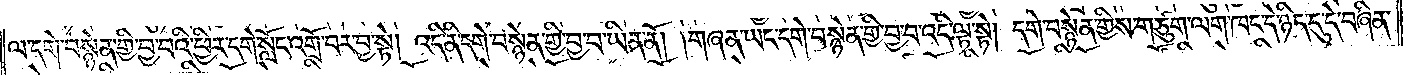ལ་དགེ་བསྙེན་གྱི་བྱ་བའི་ཕྱིར་དགེ་སློང་འགྲོ་བར་བྱ་སྟེ། འདི་ནི་དགེ་བསྙེན་གྱི་བྱ་བ་ཡིན་ནོ། །གཞན་ཡང་དགེ་བསྙེན་གྱི་བྱ་བ་འདི་ལྟ་སྟེ། དགེ་བསྙེན་གྱིས་གཙུག་ལག་ཁང་དེ་ཉིད་དུ་དེ་བཞིན་
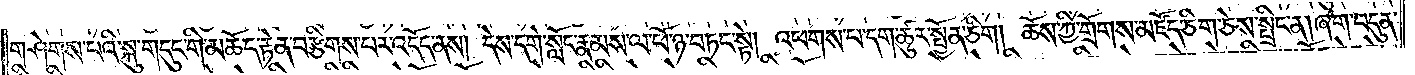གཤེགས་པའི་སྐུ་གདུང་གི་མཆོད་རྟེན་བརྩིགས་པར་འདོད་ནས། དེས་དགེ་སློང་རྣམས་ལ་ཕོ་ཉ་བཏང་སྟེ། འཕགས་པ་དག་ཚུར་སྤྱོན་ཅིག། ཆོས་ཀྱི་གྲོགས་མཛོད་ཅིག་ཅེས་སྤྲིང་ན། ཞག་བདུན་
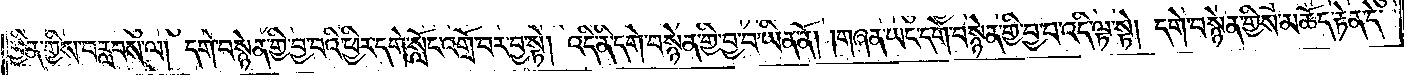བྱིན་གྱིས་བརླབས་ལ། དགེ་བསྙེན་གྱི་བྱ་བའི་ཕྱིར་དགེ་སློང་འགྲོ་བར་བྱ་སྟེ། འདི་ནི་དགེ་བསྙེན་གྱི་བྱ་བ་ཡིན་ནོ། །གཞན་ཡང་དགེ་བསྙེན་གྱི་བྱ་བ་འདི་ལྟ་སྟེ། དགེ་བསྙེན་གྱིས་མཆོད་རྟེན་དེ་
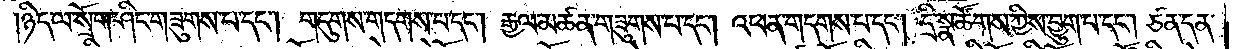ཉིད་ལ་སྲོག་ཤིང་གཟུགས་པ་དང༌། གདུགས་གདགས་པ་དང༌། རྒྱལ་མཚན་གཟུགས་པ་དང༌། འཕན་གདགས་པ་དང༌། དྲི་སྣ་ཚོགས་ཀྱིས་བྱུག་པ་དང༌། ཙན་དན་
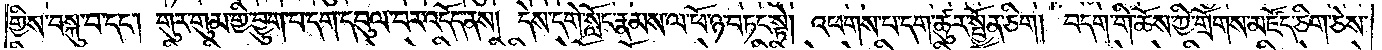གྱིས་བསྐུ་བ་དང༌། གུར་གུམ་གྱི་བྱུག་པ་དག་དབུལ་བར་འདོད་ནས། དེས་དགེ་སློང་རྣམས་ལ་ཕོ་ཉ་བཏང་སྟེ། འཕགས་པ་དག་ཚུར་སྤྱོན་ཅིག། བདག་གི་ཆོས་ཀྱི་གྲོགས་མཛོད་ཅིག་ཅེས་
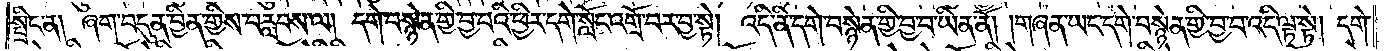སྤྲིང་ན། ཞག་བདུན་བྱིན་གྱིས་བརླབས་ལ། དགེ་བསྙེན་གྱི་བྱ་བའི་ཕྱིར་དགེ་སློང་འགྲོ་བར་བྱ་སྟེ། འདི་ནི་དགེ་བསྙེན་གྱི་བྱ་བ་ཡིན་ནོ། །གཞན་ཡང་དགེ་བསྙེན་གྱི་བྱ་བ་འདི་ལྟ་སྟེ། དགེ་
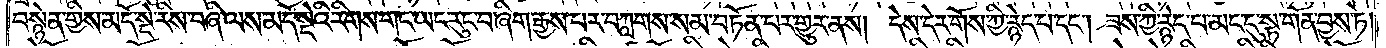བསྙེན་གྱིས་མདོ་སྡེ་རིས་བཞི་ལས་མདོ་སྡེའི་རིགས་གང་ཡང་རུང་བ་ཞིག་རྒྱས་པར་བཀླགས་སམ་བཏོན་པར་གྱུར་ནས། དེས་དེར་གོས་ཀྱི་རྙེད་པ་དང༌། ཟས་ཀྱི་རྙེད་པ་མང་དུ་སྟ་གོན་བྱས་ཏེ་
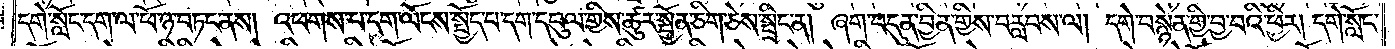དགེ་སློང་དག་ལ་ཕོ་ཉ་བཏང་ནས། འཕགས་པ་དག་ལོངས་སྤྱོད་པ་དག་དབུལ་གྱིས་ཚུར་སྤྱོན་ཅིག་ཅེས་སྤྲིང་ན། ཞག་བདུན་བྱིན་གྱིས་བརླབས་ལ། དགེ་བསྙེན་གྱི་བྱ་བའི་ཕྱིར། དགེ་སློང་
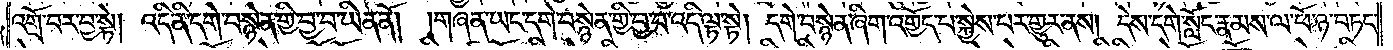འགྲོ་བར་བྱ་སྟེ། འདི་ནི་དགེ་བསྙེན་གྱི་བྱ་བ་ཡིན་ནོ། །གཞན་ཡང་དགེ་བསྙེན་གྱི་བྱ་བ་འདི་ལྟ་སྟེ། དགེ་བསྙེན་ཞིག་འགྱོད་པ་སྐྱེས་པར་གྱུར་ནས། དེས་དགེ་སློང་རྣམས་ལ་ཕོ་ཉ་བཏང་
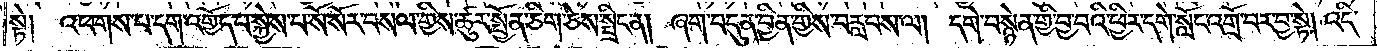སྟེ། འཕགས་པ་དག་འགྱོད་པ་སྐྱེས་པ་སོ་སོར་བསལ་གྱིས་ཚུར་སྤྱོན་ཅིག་ཅེས་སྤྲིང་ན། ཞག་བདུན་བྱིན་གྱིས་བརླབས་ལ། དགེ་བསྙེན་གྱི་བྱ་བའི་ཕྱིར་དགེ་སློང་འགྲོ་བར་བྱ་སྟེ། འདི་
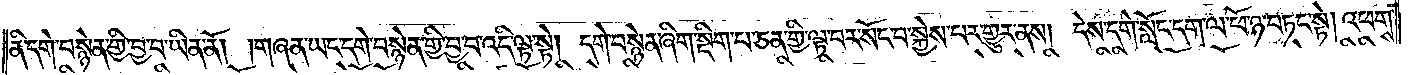ནི་དགེ་བསྙེན་གྱི་བྱ་བ་ཡིན་ནོ། །གཞན་ཡང་དགེ་བསྙེན་གྱི་བྱ་བ་འདི་ལྟ་སྟེ། དགེ་བསྙེན་ཞིག་སྡིག་པ་ཅན་གྱི་ལྟ་བར་སོང་བ་སྐྱེས་པར་གྱུར་ནས། དེས་དགེ་སློང་དག་ལ་ཕོ་ཉ་བཏང་སྟེ། འཕགས་
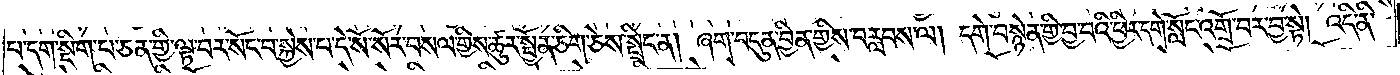པ་དག་སྡིག་པ་ཅན་གྱི་ལྟ་བར་སོང་བ་སྐྱེས་པ་དེ་སོ་སོར་བསལ་གྱིས་ཚུར་སྤྱོན་ཅིག་ཅེས་སྤྲིང་ན། ཞག་བདུན་བྱིན་གྱིས་བརླབས་ལ། དགེ་བསྙེན་གྱི་བྱ་བའི་ཕྱིར་དགེ་སློང་འགྲོ་བར་བྱ་སྟེ། འདི་ནི་
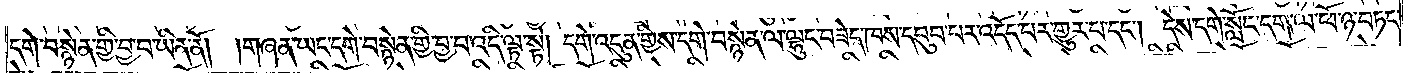དགེ་བསྙེན་གྱི་བྱ་བ་ཡིན་ནོ། །གཞན་ཡང་དགེ་བསྙེན་གྱི་བྱ་བ་འདི་ལྟ་སྟེ། དགེ་འདུན་གྱིས་དགེ་བསྙེན་ལ་ལྷུང་བཟེད་ཁས་དབུབ་པར་འདོད་པར་གྱུར་པ་དང༌། དེས་དགེ་སློང་དག་ལ་ཕོ་ཉ་བཏང་
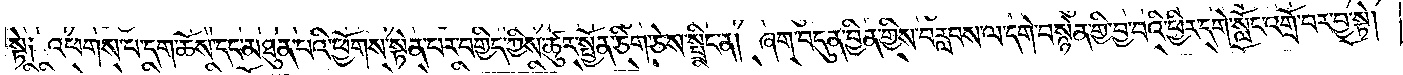སྟེ༑  འཕགས་པ་དག་ཆོས་དང་མཐུན་པའི་ཕྱོགས་སྟེན་པར་བགྱིད་ཀྱིས་ཚུར་སྤྱོན་ཅིག་ཅེས་སྤྲིང་ན། ཞག་བདུན་བྱིན་གྱིས་བརླབས་ལ་དགེ་བསྙེན་གྱི་བྱ་བའི་ཕྱིར་དགེ་སློང་འགྲོ་བར་བྱ་སྟེ།
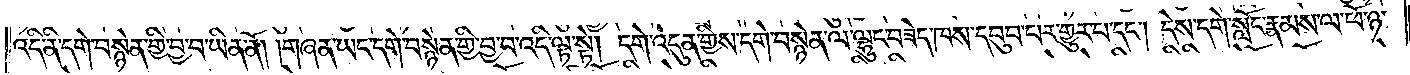འདི་ནི་དགེ་བསྙེན་གྱི་བྱ་བ་ཡིན་ནོ། །གཞན་ཡང་དགེ་བསྙེན་གྱི་བྱ་བ་འདི་ལྟ་སྟེ། དགེ་འདུན་གྱིས་དགེ་བསྙེན་ལ་ལྷུང་བཟེད་ཁས་དབུབ་པར་གྱུར་པ་དང༌། དེས་དགེ་སློང་རྣམས་ལ་ཕོ་ཉ་
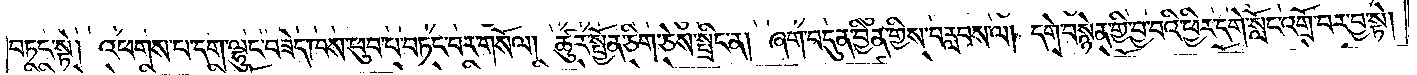བཏང་སྟེ། འཕགས་པ་དག་ལྷུང་བཟེད་ཁས་ཕུབ་པ་བཏང་བར་གསོལ། ཚུར་སྤྱོན་ཅིག་ཅེས་སྤྲིང་ན། ཞག་བདུན་བྱིན་གྱིས་བརླབས་ལ། དགེ་བསྙེན་གྱི་བྱ་བའི་ཕྱིར་དགེ་སློང་འགྲོ་བར་བྱ་སྟེ།
